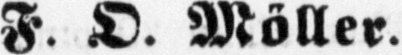F. O. Möller.
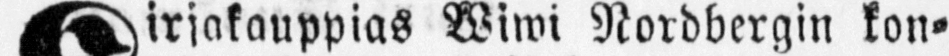Kirjakauppias Wiwi Nordbergin kon-
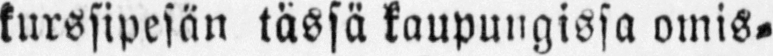kurssipesän tässä kaupungissa omis-
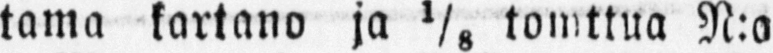tama kartano ja ⅛ tomttua N:o
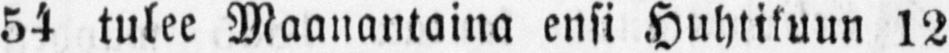54 tulee Maanantaina ensi Huhtikuun 12
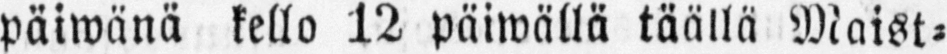päiwänä kello 12 päiwällä täällä Maist-
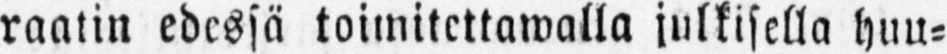raatin edessä toimitettawalla julkisella huu-
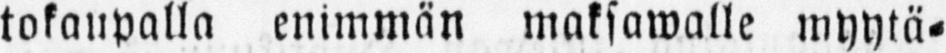tokaupalla enimmän maksawalle myytä-
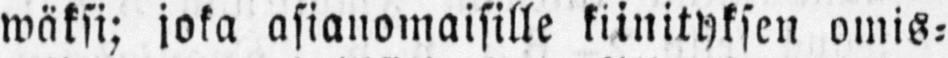wäksi; joka asianomaisille kiinityksen omis-
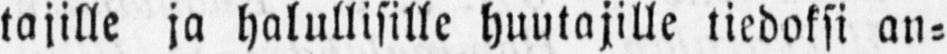tajille ja halullisille huutajille tiedoksi an-
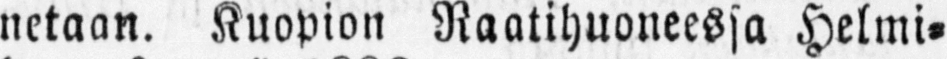netaan. Kuopion Raatihuoneessa Helmi-
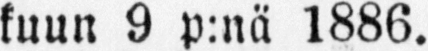kuun 9 p:nä 1886.
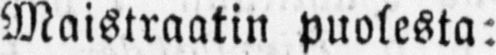Maistraatin puolesta:
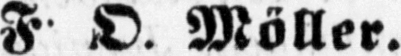F O. Möller.
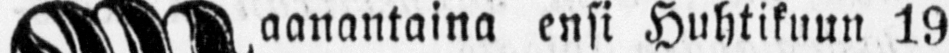Maanantaina ensi Huhtikuun 19
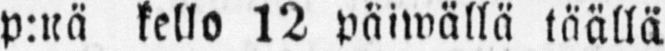p:nä kallo 12 päiwällä täällä
